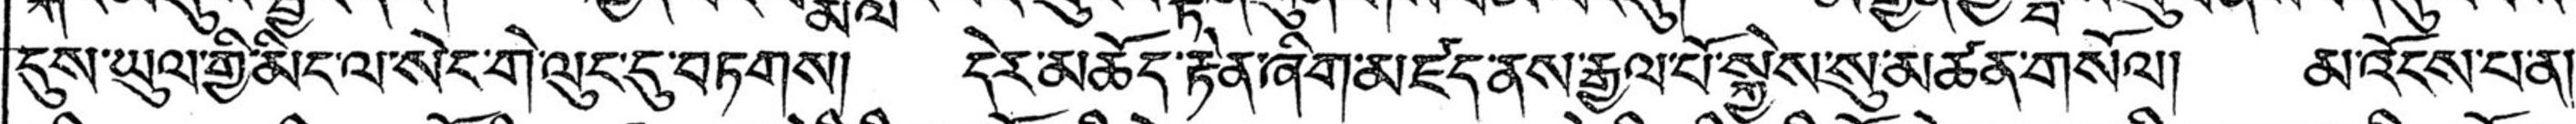དུས་ཡུལ་གྱི་མིང་ལ་སེང་གེ་ལུང་དུ་བཏགས། དེར་མཆོད་རྟེན་ཞིག་མཛད་ནས་རྒྱལ་པོ་སྐྱེས་སུ་མཚན་གསོལ། མའོངས་པ་ན།
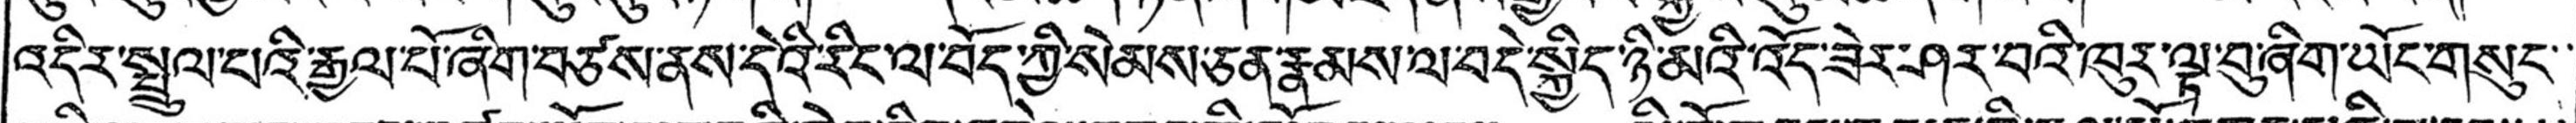འདིར་སྤྲུལ་པའི་རྒྱལ་པོ་ཞིག་བཙས་ནས་དེའི་རིང་ལ་བོད་ཀྱི་སེམས་ཅན་རྣམས་ལ་བདེ་སྐྱིད་ཉི་མའི་འོད་ཟེར་ཤར་བའི་ཁུར་ལྟ་བུ་ཞིག་ཡོང་གསུང་་
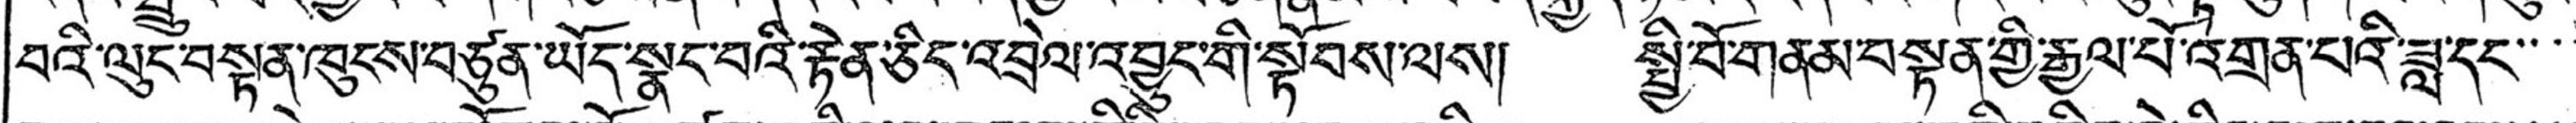བའི་ལུང་བསྟན་ཁུངས་བཙུན་ཡོད་སྣང་བའི་རྟེན་ཅིང་འབྲེལ་འབྱུང་གི་སྟོབས་ལས། སྤྱི་བོ་གནམ་བསྟན་གྱི་རྒྱལ་པོ་འགྲན་པའི་ཟླ་དང་་་་
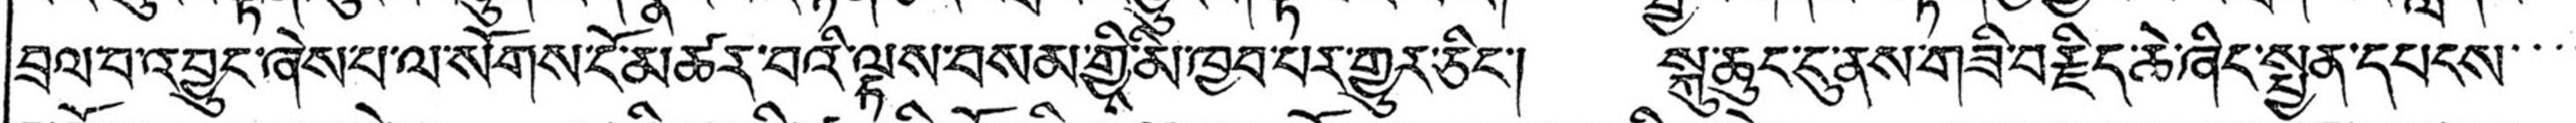བྲལ་བ་འབྱུང་ཞེས་པ་ལ་སོགས་ངོ་མཚར་བའི་ལྟས་བསམ་གྱིས་མི་ཁྱབ་པར་གྱུར་ཅིང་། སྐུ་ཆུང་ངུ་ནས་གཟི་བརྗིད་ཆེ་ཞིང་སྤྱན་དཔངས་་་་
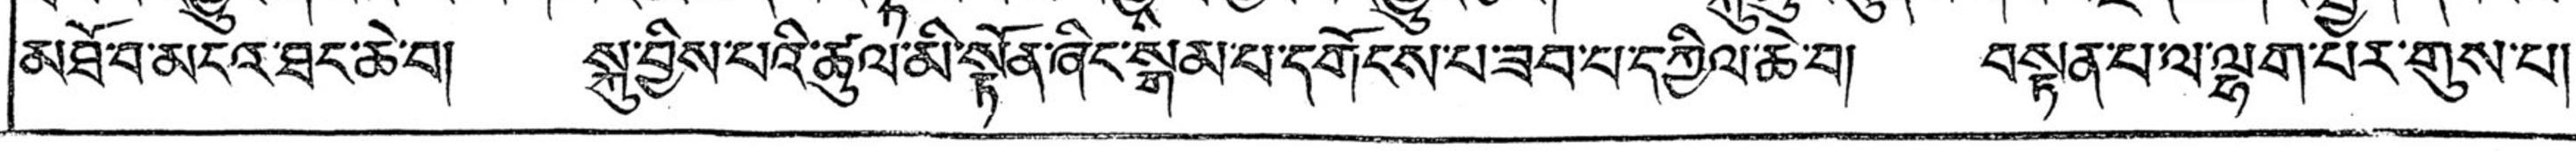མཐོ་བ་མངའ་ཐང་ཆེ་བ། སྐུ་བྱིས་པའི་ཚུལ་མི་སྟོན་ཞིང་སྒམ་པ་དགོངས་པ་ཟབ་པ་དཀྱིལ་ཆེ་བ། བསྟན་པ་ལ་ལྷག་པར་གུས་པ།
